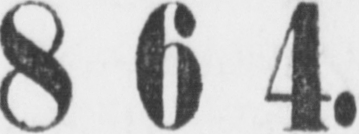1864.
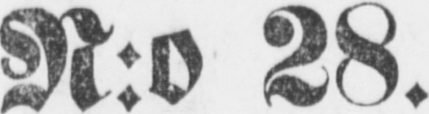N:o 28.
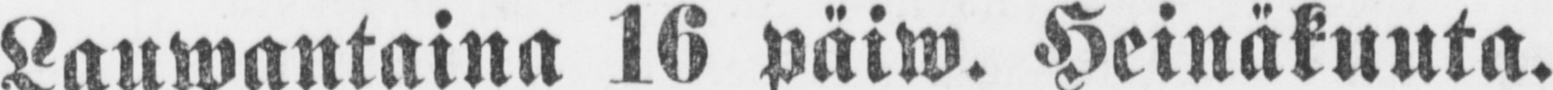Lauwantaina 16 päiw. Heinäkuuta.
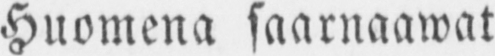Huomena saarnaawat
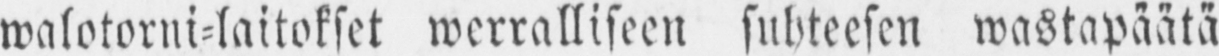walotorni-laitokset werralliseen suhteesen wastapäätä
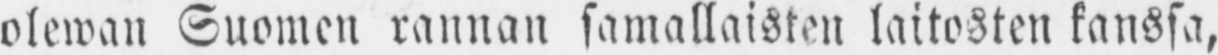olewan Suomen rannan samallaisten laitosten kanssa,
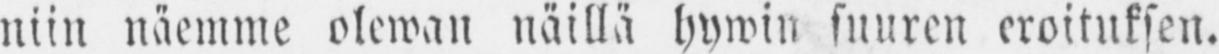niin näemme olewan näillä hywin suuren eroituksen.
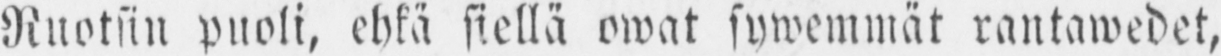Ruotsin puoli, ehkä siellä owat sywemmät rantawedet,
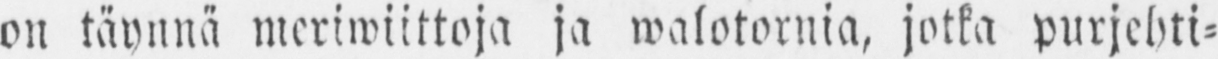on täynnä meriwiittoja ja walotornia, jotka purjehti-
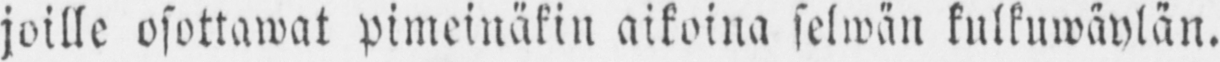joille osottawat pimeinäkin aikoina selwän kulkuwäylän.
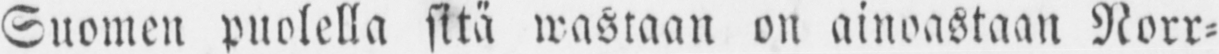Suomen puolella sitä wastaan on ainoastaan Norr-
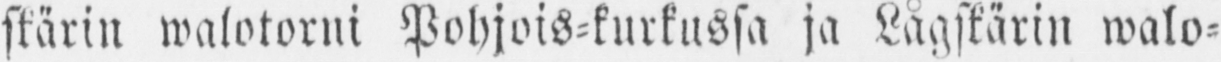skärin walotorni Pohjois-kurkussa ja Lågskärin walo-
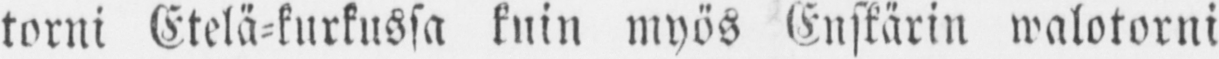torni Etelä-kurkussa kuin myös Enskärin walotorni
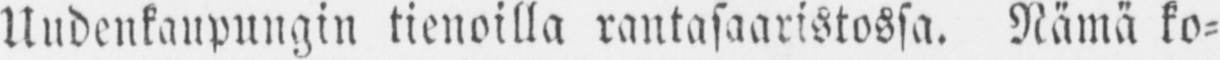Uudenkaupungin tienoilla rantasaaristossa. Nämä ko-
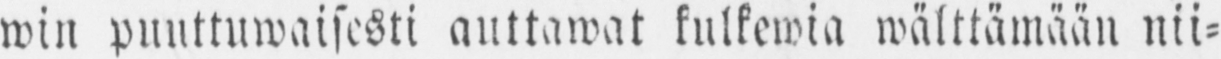win puuttuwaisesti auttawat kulkewia wälttämään nii-
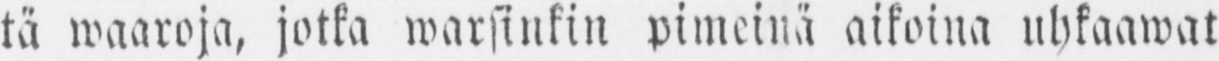tä waaroja, jotka warsinkin pimeinä aikoina uhkaawat
